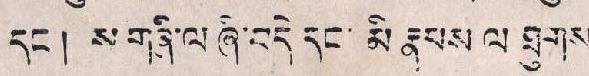དང། ས་གཞི་ལ་ཞི་བདེ དང་མི རྣམས ལ ཐུགས་
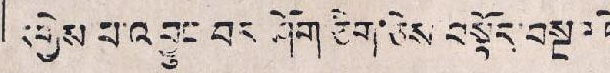དགྱེས་པ་འབྱུང་བར ཤོག ཅིག་ཅེས བསྟོད་བསྔཊཏེ
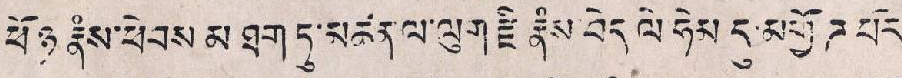ཕོ ཉ རྣཾས་ཕེབས མ་ཐག ཏུ་མཚན་ལ་ལུག་རྫི རྣཾས བདེ ལི་ཧེམ་དུ་མགྱོཊ པོར་
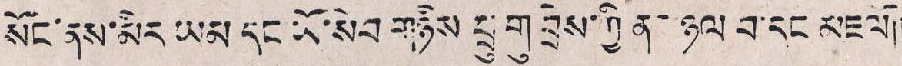སོང་ནས་མིང་ཡམ དང་ཡོ་སེབ་གཉིས ཕྲུ་གུ་བྲེས་ཀྱི ནར་ཉལ བ་དང མཇལོ།།
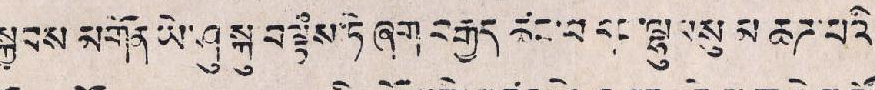སྐྱབས མགོན་ཡེ་ཤུ་སྐུ་བལྟཾས་ཏེ ཞག བརྒྱད ཚང་བ་དང་ལྷུ་བསྲུ་མཆཊ་པའི་
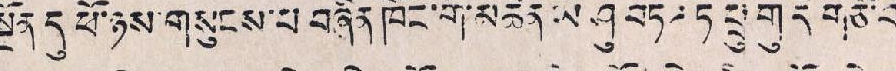སྔོན དུ ཕོ་ཉས་གསུངས་པ་བཞིན་ཁོང་གི་མཚན་ཡེ་ཤུ་བཏཌ་ཏེ་ཕྲུ་གུ དེ གཙོ་བོ་
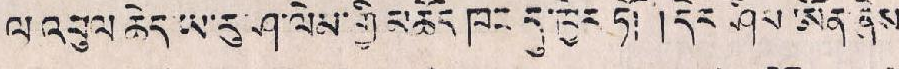ལ འབུལ ཆེད ཡ་རུ་ཤ་ལེམ་གྱི་མཆོད ཁང དུ་ཁྱེར་ཏོ། །དེར་ཤིམ་ཨོན་ཞེས་
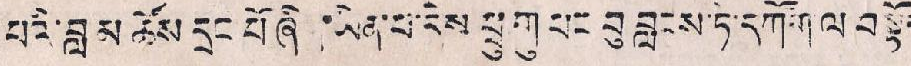པའི་བླ་མ ཆོས དྲང་པོ་ཞི་ཡིན་པ་དེས ཕྲུ་གུ་པང་བུ་བླངས་ཏེ་དཀོག་ལ་བསྟོད
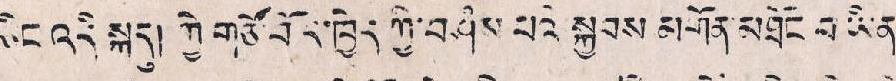ཅིང་འདི་སྐདུ། གྱི་གཙོ་བོད་ཁྱེད་ཀྱི་བཤཾམ་པའི སྐྱབས་མགོན་མཐོང བ་ཡིན།
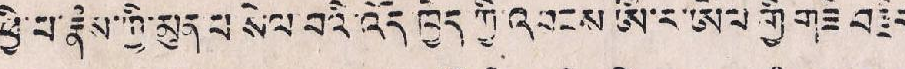ཕྱི་པ་རྣཾམ་ཀྱི་མུན་པ སེལ་བའི་འོད་ཁྱེད ཀྱི་འབངས་ཨི་ར་ཨེལ་གྱི་གཟི་བརྗིད་
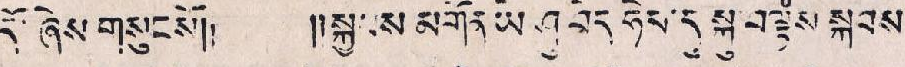དོ་ཞེས་གསུངསོ།། །།སྐྱབས་མགོན་ཡེ་ཤུ་བེད་ཧེམ་དུ་སྐུ་བལྟཾས་སྐབས་
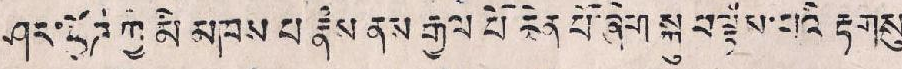ཤར་ཕྱོཊ་ཀྱི་མི མཁས པ་རྣཾས ནས རྒྱལ པོ ཆེན་པོ་ཞིག་སྐུ བལྟཾས་པའི རྟགསུ
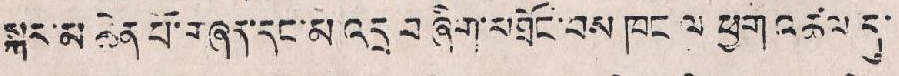སྐར་མ ཆེན པོ་གཞན་དང་མ་འདྲ བ ཞིག་མཐོང་བས་ཁང ལ ཕྱག འཚལ དུ་
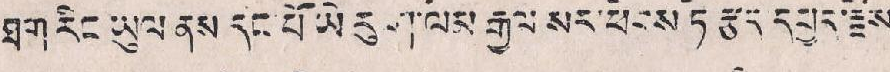ཐག་རིང ཡུལ ནས དང་པོ་ཡེ་རུ ག་ལམ རྒྱལ སར་ཕེངས་ཏེ རྩད དཔྱད་རྗེས
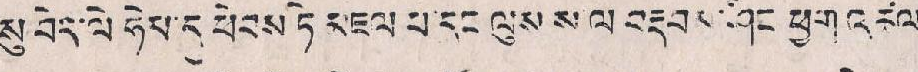སུ བདེ་ལེ ཧེམ་དུ ཕེབས ཏེ་མཇལ པ་དང ལུས ས་ལ བརྡབས་ཤིང ཕྱག་འཚལ་
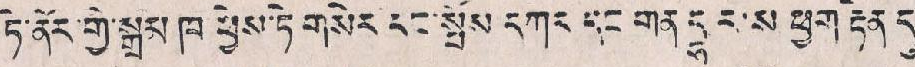ཏེ་ནོར་གྱི་སྒྲམ་ཁ ཕྱེས་ཏེ་གསེར དང་སྤོས དཀར དང གནདྷར་ས ཕྱག རྟེན དུ་
